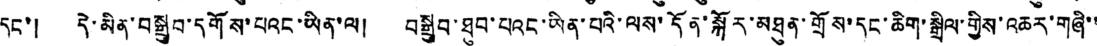དང་། དེ་མིན་བསྒྲུབ་དགོས་པའང་ཡིན་ལ། བསྒྲུབ་ཐུབ་པའང་ཡིན་པའི་ལས་དོན་སྐོར་མཐུན་གྲོས་དང་ཆིག་སྒྲིལ་གྱིས་འཆར་གཞི་་
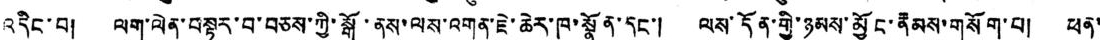འདིང་བ། ལག་ལེན་བསྟར་བ་བཅས་ཀྱི་སྒོ་ནས་ལས་འགན་ཇེ་ཆེར་ཁ་སྣོན་དང་། ལས་དོན་གྱི་ཉམས་མྱོང་རྣམས་གསོག་པ། ཕན་
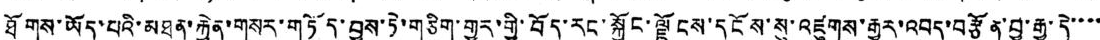ཐོགས་ཡོད་པའི་མཐུན་རྐྱེན་གསར་གཏོད་བྱས་ཏེ་གཅིག་གྱུར་གྱི་བོད་རང་སྐྱོང་ལྗོངས་དངོས་སུ་འཛུགས་རྒྱུར་འབད་བརྩོན་བྱ་རྒྱུ་དེ་་་་
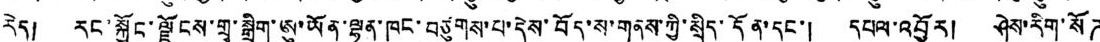རེད། རང་སྐྱོང་ལྗོངས་གྲྭ་སྒྲིག་ཨུ་ཡོན་ལྷན་ཁང་བཙུགས་པ་དེས་བོད་ས་གནས་ཀྱི་སྲིད་དོན་དང་། དཔལ་འབྱོར། ཤེས་རིག་སོཌ
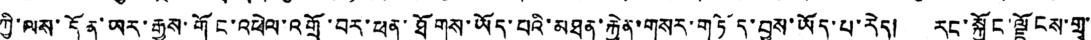ཀྱི་ལས་དོན་ཡར་རྒྱས་གོང་འཕེལ་འགྲོ་བར་ཕན་ཐོགས་ཡོད་པའི་མཐུན་རྐྱེན་གསར་གཏོད་བྱས་ཡོད་པ་རེད། རང་སྐྱོང་ལྗོངས་གྲྭ་་
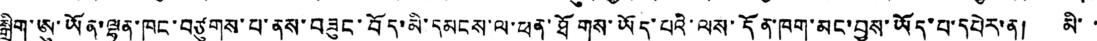སྒྲིག་ཨུ་ཡོན་ལྷན་ཁང་བཙུགས་པ་ནས་བཟུང་བོད་མི་དམངས་ལ་ཕན་ཐོགས་ཡོད་པའི་ལས་དོན་ཁག་མང་བྱས་ཡོད་པ་དཔེར་ན། མི་་
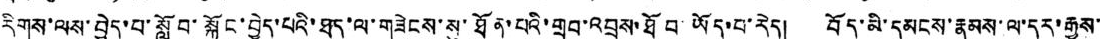རིགས་ལས་བྱེད་པ་སློབ་སྐྱོང་བྱེད་པའི་ཐད་ལ་གཟེངས་སུ་ཐོན་པའི་གྲུབ་འབྲས་ཐོབ་ཡོད་པ་རེད། བོད་མི་དམངས་རྣམས་ལ་དར་རྒྱས་
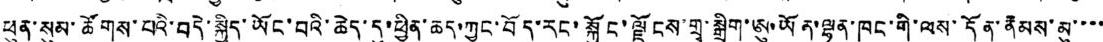ཕུན་སུམ་ཚོགས་པའི་བདེ་སྐྱིད་ཡོང་བའི་ཆེད་དུ་ཕྱིན་ཆད་ཀྱང་བོད་རང་སྐྱོང་ལྗོངས་གྲྭ་སྒྲིག་ཨུ་ཡོན་ལྷན་ཁང་གི་ལས་དོན་རྣམས་མུ་་་་
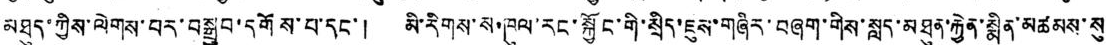མཐུད་ཀྱིས་ལེགས་པར་བསྒྲུབ་དགོས་པ་དང་། མི་རིགས་ས་ཁུལ་རང་སྐྱོང་གི་སྲིད་ཇུས་གཞིར་བཞག་གིས་སླད་མཐུན་རྐྱེན་སྨིན་མཚམས་སུ
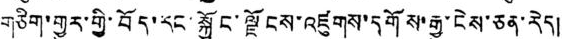གཅིག་གྱུར་གྱི་བོད་རང་སྐྱོང་ལྗོངས་འཛུགས་དགོས་རྒྱུ་ངེས་ཅན་རེད།
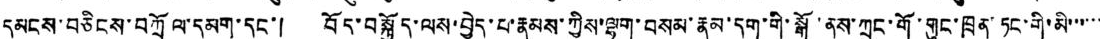དམངས་བཅིངས་བཀྲོལ་དམག་དང་། བོད་བསྐྱོད་ལས་བྱེད་པ་རྣམས་ཀྱིས་ལྷག་བསམ་རྣམ་དག་གི་སྒོ་ནས་ཀྲུང་གོ་གུང་ཁྲན་ཏང་གི་མི་་་་་་
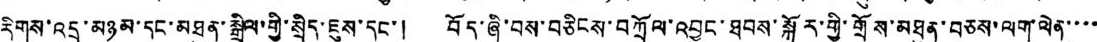རིགས་འདྲ་མཉམ་དང་མཐུན་སྒྲིལ་གྱི་སྲིད་ཇུས་དང་། བོད་ཞི་བས་བཅིངས་བཀྲོལ་འབྱུང་ཐབས་སྐོར་གྱི་གྲོས་མཐུན་བཅས་ལག་ལེན་་་་
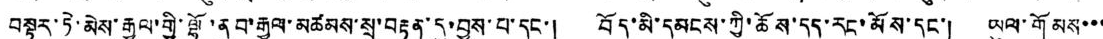བསྟར་ཏེ་མེས་རྒྱལ་གྱི་ལྷོ་ནུབ་རྒྱལ་མཚམས་སྲ་བརྟན་དུ་བྱས་པ་དང་། བོད་མི་དམངས་ཀྱི་ཆོས་དད་རང་མོས་དང་། ཡུལ་གོམས་་་
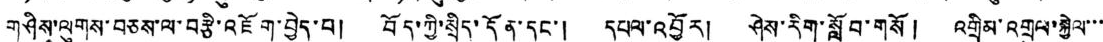གཤིས་ལུགས་བཅས་ལ་བརྩི་འཇོག་བྱེད་པ། བོད་ཀྱི་སྲིད་དོན་དང་། དཔལ་འབྱོར། ཤེས་རིག་སློབ་གསོ། འགྲིམ་འགྲུལ་སྐྱེལ་་་
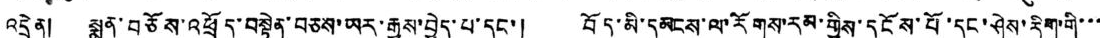འདྲེན། སྨན་བཅོས་འཕྲོད་བསྟེན་བཅས་ཡར་རྒྱས་བྱེད་པ་དང་། བོད་མི་དམངས་ལ་རོགས་རམ་གྱིས་དངོས་པོ་དང་ཤེས་རིག་གི་་་
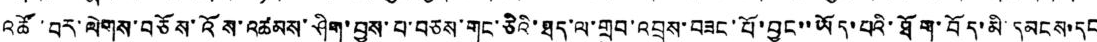འཚོ་བར་ལེགས་བཅོས་འོས་འཚམས་ཤིག་བྱས་པ་བཅས་གང་ཅིའི་ཐད་ལ་གྲུབ་འབྲས་བཟང་པོ་བྱུང་་ཡོད་པའི་ཐོག་བོད་མི་དམངས་དང
